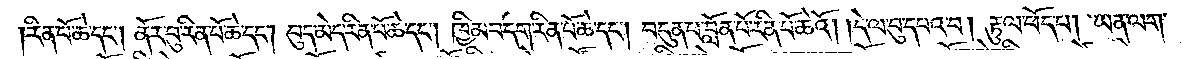རིན་པོ་ཆེ་དང༌། ནོར་བུ་རིན་པོ་ཆེ་དང༌། བུད་མེད་རིན་པོ་ཆེ་དང༌། ཁྱིམ་བདག་རིན་པོ་ཆེ་དང༌། བདུན་པ་བློན་པོ་རིན་པོ་ཆེའོ། །དེ་ལ་བུད་དཔའ་བ། རྟུལ་ཕོད་པ། ཡན་ལག་
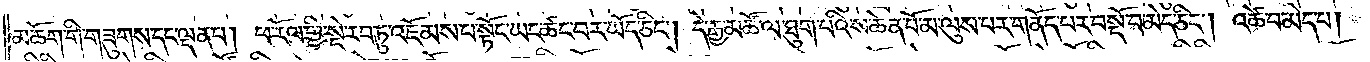མཆོག་གི་གཟུགས་དང་ལྡན་པ། ཕ་རོལ་གྱི་སྡེ་རབ་ཏུ་འཇོམས་པ་སྟོང་ཡང་ཚང་བར་ཡོད་ཅིང༌། དེ་རྒྱ་མཚོ་ལ་ཐུག་པའི་ས་ཆེན་པོ་མ་ལུས་པར་གནོད་པར་བསྔོ་བ་མེད་ཅིང༌། འཚེ་བ་མེད་པ།
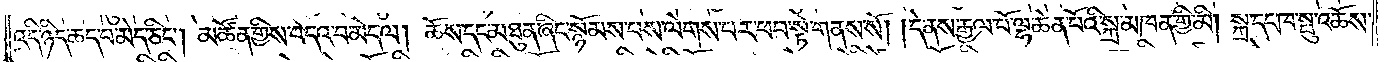འདི་ཉིད་ཆད་པ་མེད་ཅིང༌། མཚོན་གྱིས་བདའ་བ་མེད་ལ། ཆོས་དང་མཐུན་ཞིང་སྙོམས་པས་ལེགས་པར་ཕབ་སྟེ་གནས་སོ། །དེ་ནས་རྒྱལ་པོ་ལྷ་ཆེན་པོའི་སྐྲ་མཁན་གྱི་མི། སྐྲ་དང་ཁ་སྤུ་འཆོས་
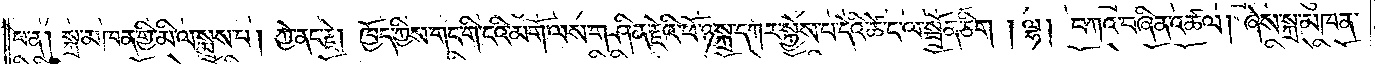པ་ན། སྐྲ་མཁན་གྱི་མི་ལ་སྨྲས་པ། ཀྱེ་ནང་རྗེ། ཁྱོད་ཀྱིས་གང་གི་ངའི་མགོ་ལས་གཤིན་རྗེའི་ཕོ་ཉ་སྐྲ་དཀར་སྐྱེས་པ་དེའི་ཚེ་ང་ལ་སྦྲོན་ཅིག །ལྷ། བཀའ་བཞིན་འཚལ། ཞེས་སྐྲ་མཁན་
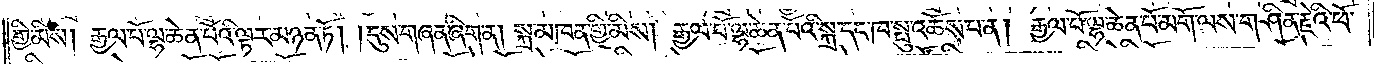གྱི་མིས། རྒྱལ་པོ་ལྷ་ཆེན་པོའི་ལྟར་མཉན་ཏོ། །དུས་གཞན་ཞིག་ན། སྐྲ་མཁན་གྱི་མིས། རྒྱལ་པོ་ལྷ་ཆེན་པོའི་སྐྲ་དང་ཁ་སྤུ་འཆོས་པ་ན། རྒྱལ་པོ་ལྷ་ཆེན་པོ་མགོ་ལས་གཤིན་རྗེའི་ཕོ་
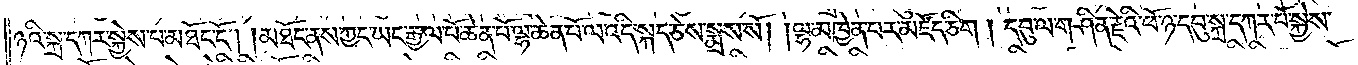ཉའི་སྐྲ་དཀར་སྐྱེས་པ་མཐོང་ངོ༌། །མཐོང་ནས་ཀྱང་ཡང་རྒྱལ་པོ་ཆེན་པོ་ལྷ་ཆེན་པོ་ལ་འདི་སྐད་ཅེས་སྨྲས་སོ། །ལྷ་མཁྱེན་པར་མཛོད་ཅིག །དབུ་ལ་གཤིན་རྗེའི་ཕོ་ཉ་དབུ་སྐྲ་དཀར་པོ་སྐྱེས་
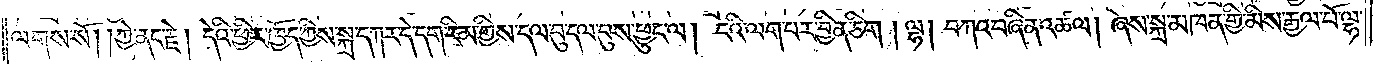ལགས་སོ། །ཀྱེ་ནང་རྗེ། དེའི་ཕྱིར་ཁྱོད་ཀྱིས་སྐྲ་དཀར་དེ་དག་རིམ་གྱིས་དལ་བུ་དལ་བུས་ཕྱུང་ལ། ངའི་ལག་པར་བྱིན་ཅིག །ལྷ། །བཀའ་བཞིན་འཚལ། ཞེས་སྐྲ་མཁན་གྱི་མིས་རྒྱལ་པོ་ལྷ་
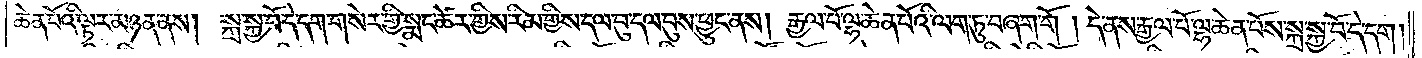ཆེན་པོའི་ལྟར་མཉན་ནས། སྐྲ་སྐྱ་བོ་དེ་དག་གསེར་གྱི་སྨང་ཚེར་གྱིས་རིམ་གྱིས་དལ་བུ་དལ་བུས་ཕྱུང་ནས། རྒྱལ་པོ་ལྷ་ཆེན་པོའི་ལག་ཏུ་བཞག་གོ །དེ་ནས་རྒྱལ་པོ་ལྷ་ཆེན་པོས་སྐྲ་སྐྱ་བོ་དེ་དག།
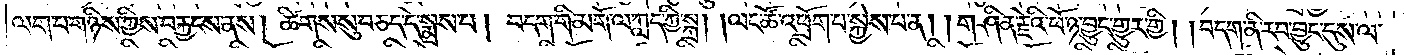ལག་པ་གཉིས་ཀྱིས་བརྐྱངས་ནས། ཚིགས་སུ་བཅད་དེ་སྨྲས་པ། བདག་གི་མགོ་ལ་ཀླད་ཀྱི་སྐྲ། །ལང་ཚོ་འཕྲོག་པ་སྐྱེས་པ་ན། །གཤིན་རྗེའི་ཕོ་ཉ་བྱུང་གྱུར་གྱི། །བདག་ནི་རབ་བྱུང་དུས་ལ་
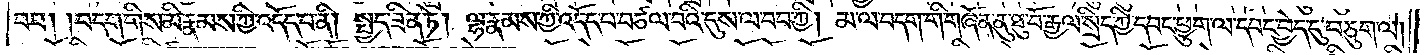བབ། །བདག་གིས་མི་རྣམས་ཀྱི་འདོད་པ་ནི། སྤྱད་ཟིན་ཏེ། ལྷ་རྣམས་ཀྱི་འདོད་པ་བཙལ་བའི་དུས་ལ་བབ་ཀྱི། མ་ལ་བདག་གི་གཞོན་ནུ་ཐུ་བོ་རྒྱལ་སྲིད་ཀྱི་དབང་ཕྱུག་ལ་དབང་བྱེད་དུ་བཅུག་ལ།
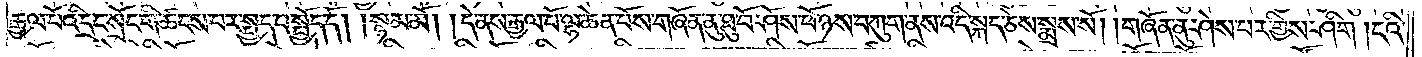རྒྱལ་པོའི་དྲང་སྲོང་གི་ཚངས་པར་སྤྱད་པ་སྤྱོད་དོ། །སྙམ་མོ། །དེ་ནས་རྒྱལ་པོ་ལྷ་ཆེན་པོས་གཞོན་ནུ་ཐུ་བོ་ཤོས་ཕོ་ཉས་བཀུག་ནས་འདི་སྐད་ཅེས་སྨྲས་སོ། །གཞོན་ནུ་ཤེས་པར་གྱིས་ཤིག །ངའི་
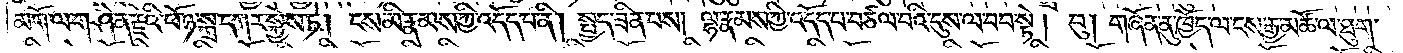མགོ་ལ་གཤིན་རྗེའི་ཕོ་ཉ་སྐྲ་དཀར་སྐྱེས་ཏེ། ངས་མི་རྣམས་ཀྱི་འདོད་པ་ནི། སྤྱད་ཟིན་པས། ལྷ་རྣམས་ཀྱི་འདོད་པ་བཙལ་པའི་དུས་ལ་བབ་སྟེ། བུ། གཞོན་ནུ་ཁྱོད་ལ་ངས་རྒྱ་མཚོ་ལ་ཐུག་
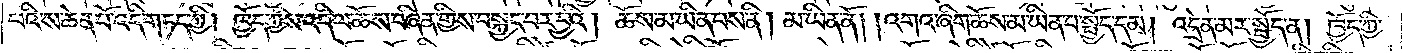པའི་ས་ཆེན་པོ་འདི་གཏད་ཀྱི། ཁྱོད་ཀྱིས་འདི་ལ་ཆོས་བཞིན་གྱིས་བསྐྱང་བར་བྱའི། ཆོས་མ་ཡིན་པས་ནི། མ་ཡིན་ནོ། །འགའ་ཞིག་ཆོས་མ་ཡིན་པ་སྤྱོད་དམ། འདྲེན་མར་སྤྱོད་ན། ཁྱོད་ཀྱི་
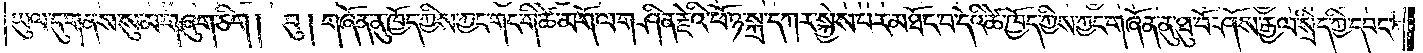ཡུལ་དུ་གནས་སུ་མ་གཞུག་ཅིག །བུ། གཞོན་ནུ་ཁྱོད་ཀྱིས་ཀྱང་གང་གི་ཚེ་མགོ་ལ་གཤིན་རྗེའི་ཕོ་ཉ་སྐྲ་དཀར་སྐྱེས་པར་མཐོང་བ་དེའི་ཚེ་ཁྱོད་ཀྱིས་ཀྱང་གཞོན་ནུ་ཐུ་བོ་ཤོས་རྒྱལ་སྲིད་ཀྱི་དབང་
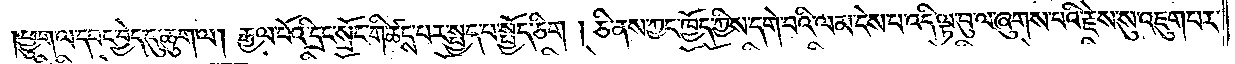ཕྱུག་ལ་དབང་བྱེད་དུ་ཆུག་ལ། རྒྱལ་པོའི་དྲང་སྲོང་གི་ཆད་པར་སྤྱད་པ་སྤྱོད་ཅིག །ཅི་ནས་ཀྱང་ཁྱོད་ཀྱིས་དགེ་བའི་ལམ་ངེས་པ་འདི་ལྟ་བུ་ལ་ཞུགས་པའི་རྗེས་སུ་འཇུག་པར་
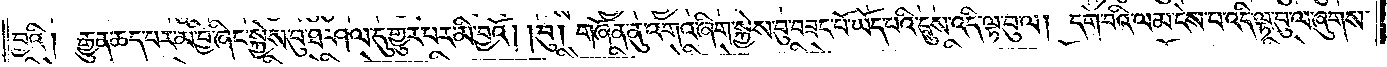བྱའི།  རྒྱུན་ཆད་པར་མི་བྱ་ཞིང་སྐྱེས་བུ་ཐ་ཤལ་དུ་གྱུར་པར་མི་བྱའོ། །བུ། གཞོན་ནུ་འགའ་ཞིག་སྐྱེས་བུ་བཟང་པོ་ཡོད་པའི་དུས་འདི་ལྟ་བུ་ལ། དགེ་བའི་ལམ་ངེས་པ་འདི་ལྟ་བུ་ལ་ཞུགས་
